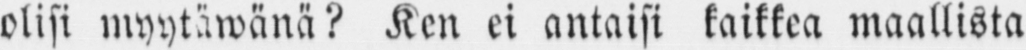olisi myytäwänä? Ken ei antaisi kaikkea maallista
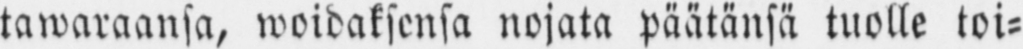tawaraansa, woidaksensa nojata päätänsä tuolle toi-
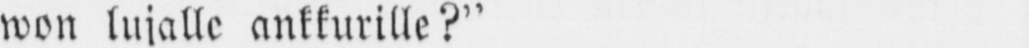won lujalle ankkurille?”
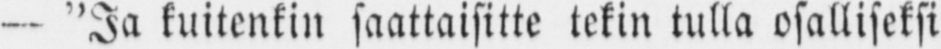— "Ja kuitenkin saattaisitte tekin tulla osalliseksi
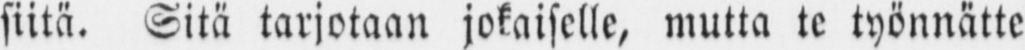siitä. Sitä tarjotaan jokaiselle, mutta te työnnätte
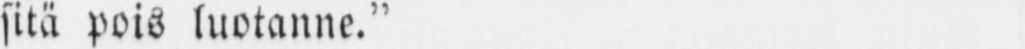sitä pois luotanne.”
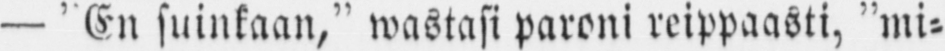— ”En suinkaan,” wastasi paroni reippaasti, ”mi-
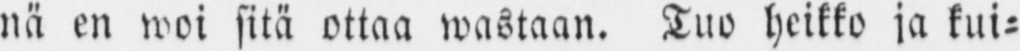nä en woi sitä ottaa wastaan. Tuo heikko ja kui-
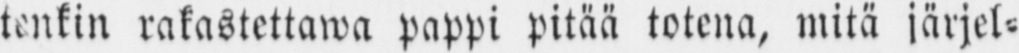tenkin rakastettawa pappi pitää totena, mitä järjel-
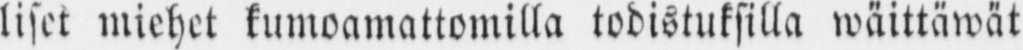liset miehet kumoamattomilla todistuksilla wäittäwät
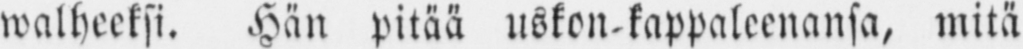walheeksi. Hän pitää uskon-kappaleenansa, mitä
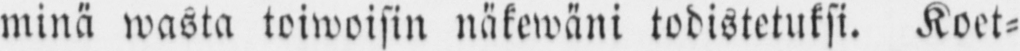minä wasta toiwoisin näkewäni todistetuksi. Koet-
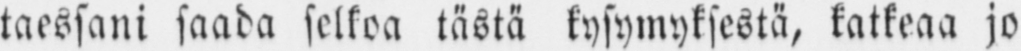taessani saada selkoa tästä kysymyksestä, katkeaa jo
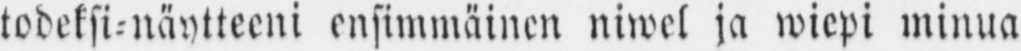todeksi-näytteeni ensimmäinen niwel ja wiepi minua
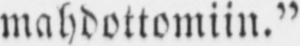mahdottomiin."
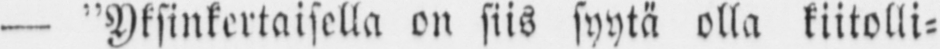— ”Yksinkertaisella on siis syytä olla kiitolli-
